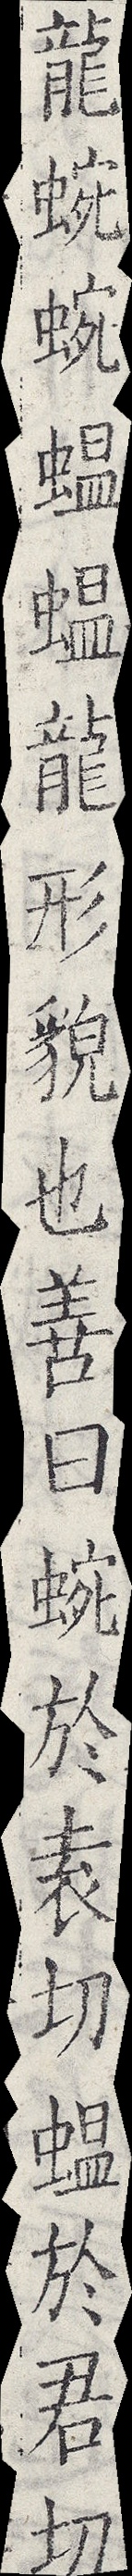龍蜿蜿蝹蝹龍形貌也善曰蜿於袁切蝹於君切
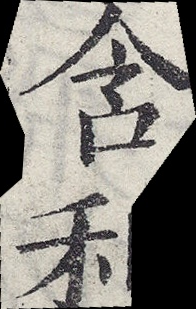含利
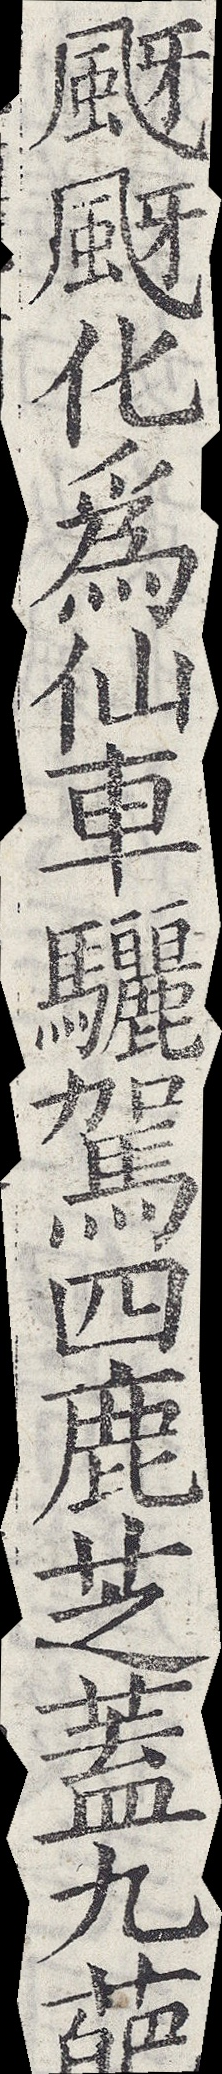颬颬化為仙車驪駕四鹿芝蓋九葩
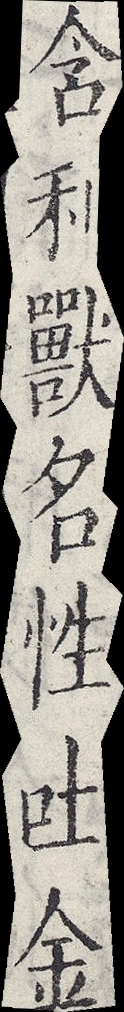含利獸名性吐金
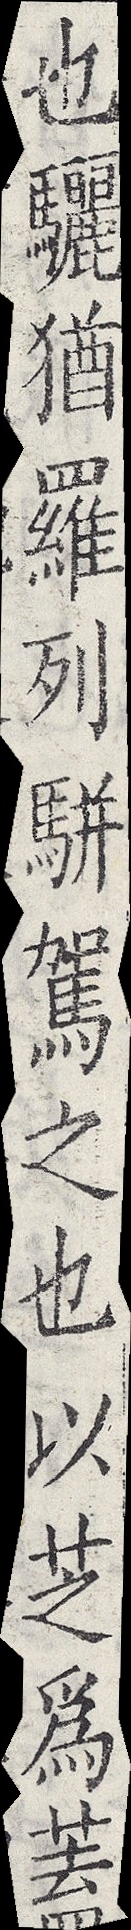也驪猶羅列駢駕之也以芝為蓋
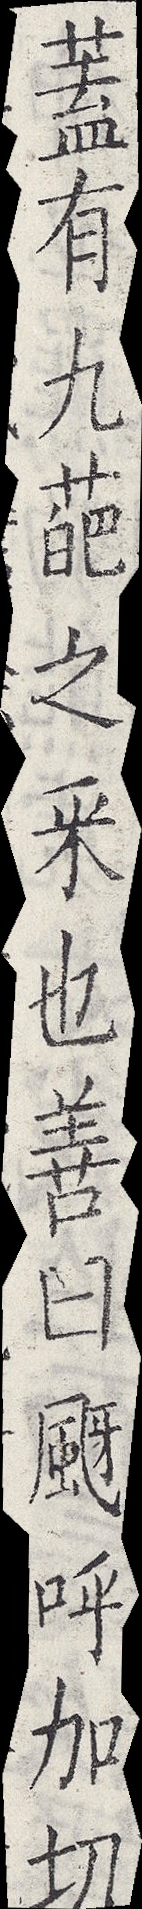蓋有九葩之采也善曰颬呼加切
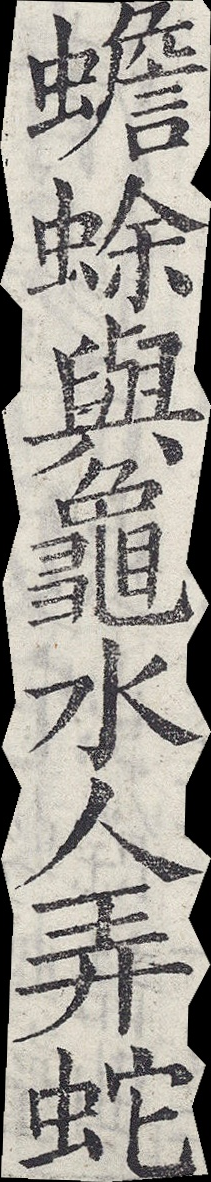蟾蜍與龜水人弄蛇
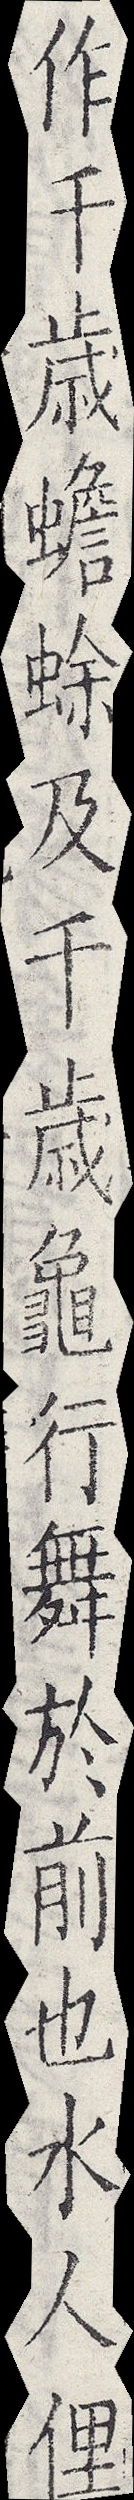作千歲蟾蜍及千歲龜行舞於前也水人俚
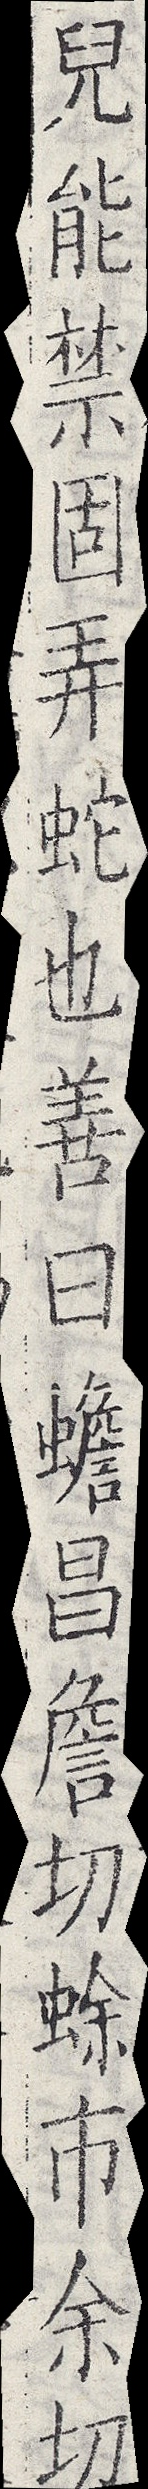兒能禁固弄蛇也善曰蟾昌詹切蜍市余切
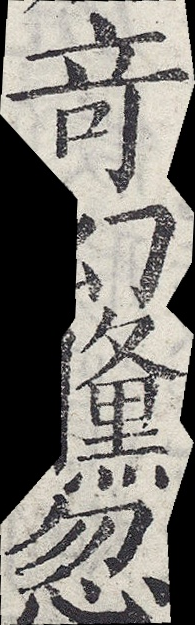竒幻儵忽
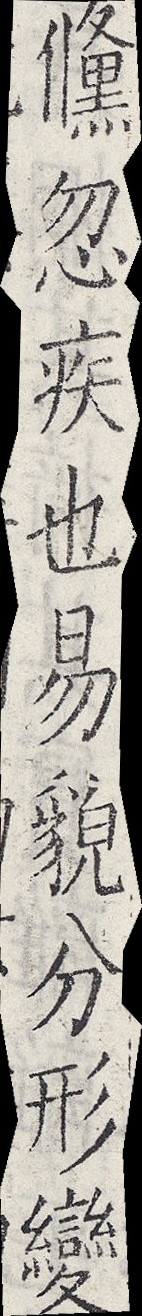儵忽疾也易貌分形變
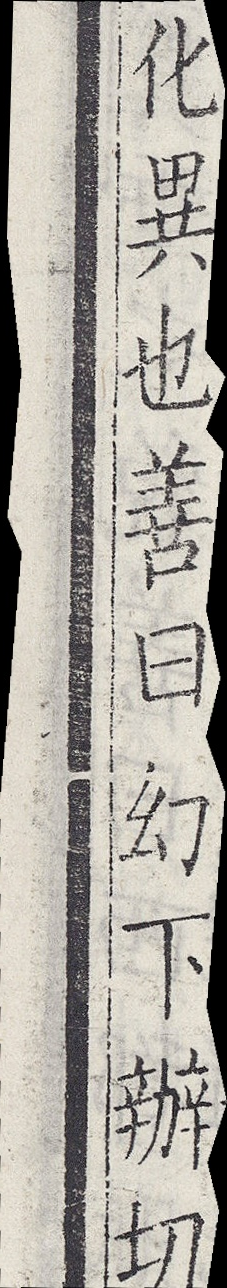化異也善曰幻下辦切
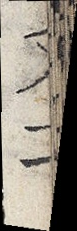文二
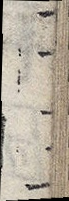二十五
